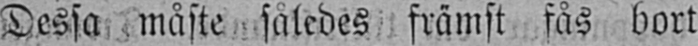Dessa måste således främst fås bort
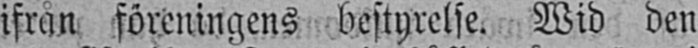ifrån föreningens bestyrelse. Wid den
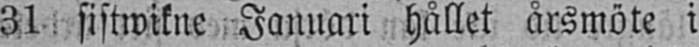31 sistwikne Januari hållet årsmöte i
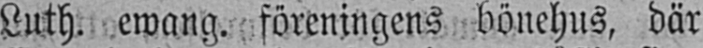Luth. ewang. föreningens bönehus, där
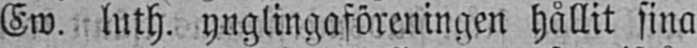Ew. luth. ynglingaföreningen hållit sina
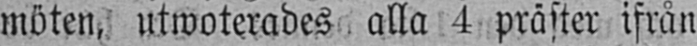möten, utwoterades alla 4 präster ifrån
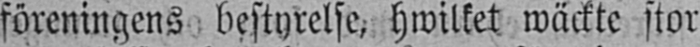föreningens bestyrelse, hwilket wäckte stor
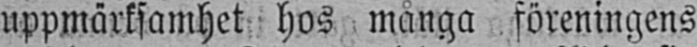uppmärksamhet hos många föreningens
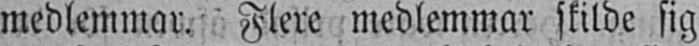medlemmar. Flere medlemmar skilde sig
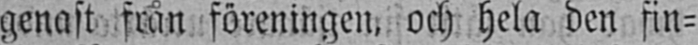genast från föreningen, och hela den fin-
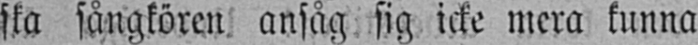ska sångkören ansåg sig icke mera kunna
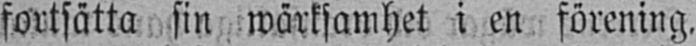fortsätta sin wärksamhet i en förening,
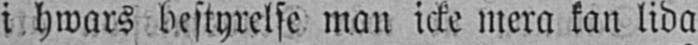i hwars bestyrelse man icke mera kan lida
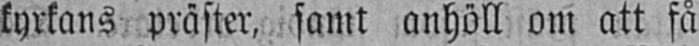kyrkans präster, samt anhöll om att få
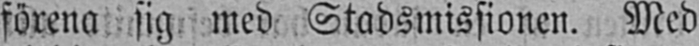förena sig med Stadsmissionen. Med
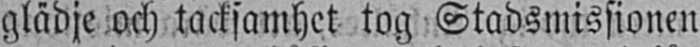glädje och tacksamhet tog Stadsmissionen
